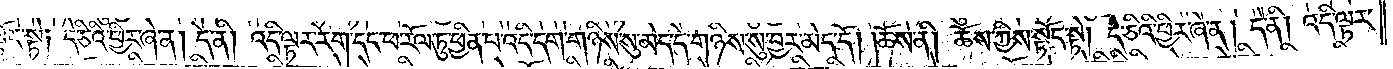སྟོང་སྟེ། དེ་ཅིའི་ཕྱིར་ཞེ་ན། དེ་ནི། འདི་ལྟར་རེག་དང་ཕ་རོལ་ཏུ་ཕྱིན་པ་འདི་དག་གཉིས་སུ་མེད་དེ་གཉིས་སུ་བྱར་མེད་དོ། །ཆོས་ནི། ཆོས་ཀྱིས་སྟོང་སྟེ། དེ་ཅིའི་ཕྱིར་ཞེ་ན། དེ་ནི། འདི་ལྟར་
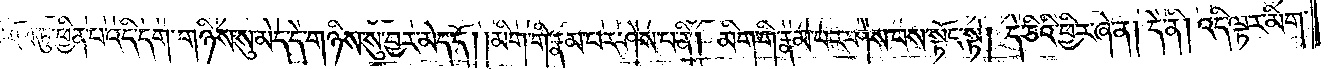ཆོས་དང་ཕ་རོལ་ཏུ་ཕྱིན་པ་འདི་དག་གཉིས་སུ་མེད་དེ་གཉིས་སུ་བྱར་མེད་དོ། །མིག་གི་རྣམ་པར་ཤེས་པ་ནི། མིག་གི་རྣམ་པར་ཤེས་པས་སྟོང་སྟེ། དེ་ཅིའི་ཕྱིར་ཞེ་ན། དེ་ནི། འདི་ལྟར་མིག་
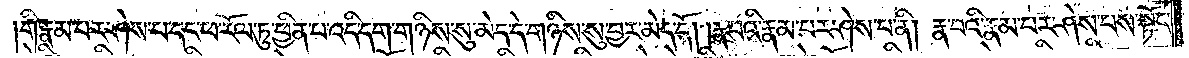གི་རྣམ་པར་ཤེས་པ་དང་ཕ་རོལ་ཏུ་ཕྱིན་པ་འདི་དག་གཉིས་སུ་མེད་དེ་གཉིས་སུ་བྱར་མེད་དོ། །རྣ་བའི་རྣམ་པར་ཤེས་པ་ནི། རྣ་བའི་རྣམ་པར་ཤེས་པས་སྟོང་
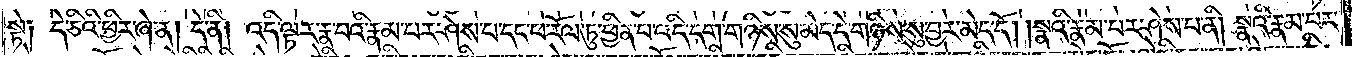སྟེ༑ དེ་ཅིའི་ཕྱིར་ཞེ་ན། དེ་ནི། འདི་ལྟར་རྣ་བའི་རྣམ་པར་ཤེས་པ་དང་ཕ་རོལ་ཏུ་ཕྱིན་པ་འདི་དག་གཉིས་སུ་མེད་དེ་གཉིས་སུ་བྱར་མེད་དོ། །སྣའི་རྣམ་པར་ཤེས་པ་ནི། སྣའི་རྣམ་པར་
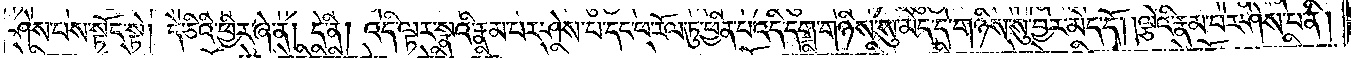ཤེས་པས་སྟོང་སྟེ། དེ་ཅིའི་ཕྱིར་ཞེ་ན། དེ་ནི། འདི་ལྟར་སྣའི་རྣམ་པར་ཤེས་པ་དང་ཕ་རོལ་ཏུ་ཕྱིན་པ་འདི་དག་གཉིས་སུ་མེད་དེ་གཉིས་སུ་བྱར་མེད་དོ། །ལྕེའི་རྣམ་པར་ཤེས་པ་ནི།
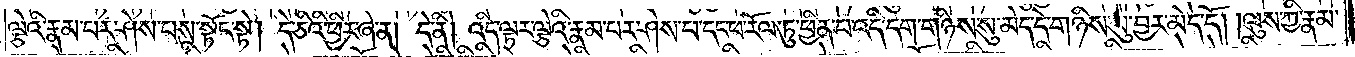ལྕེའི་རྣམ་པར་ཤེས་པས་སྟོང་སྟེ། དེ་ཅིའི་ཕྱིར་ཞེ་ན། དེ་ནི། འདི་ལྟར་ལྕེའི་རྣམ་པར་ཤེས་པ་དང་ཕ་རོལ་ཏུ་ཕྱིན་པ་འདི་དག་གཉིས་སུ་མེད་དེ་གཉིས་སུ་བྱར་མེད་དོ། །ལུས་ཀྱི་རྣམ་
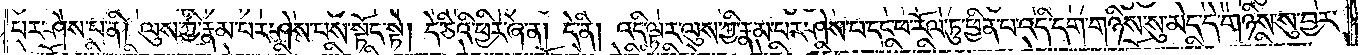པར་ཤེས་པ་ནི། ལུས་ཀྱི་རྣམ་པར་ཤེས་པས་སྟོང་སྟེ། དེ་ཅིའི་ཕྱིར་ཞེ་ན། དེ་ནི། འདི་ལྟར་ལུས་ཀྱི་རྣམ་པར་ཤེས་པ་དང་ཕ་རོལ་ཏུ་ཕྱིན་པ་འདི་དག་གཉིས་སུ་མེད་དེ་གཉིས་སུ་བྱར་
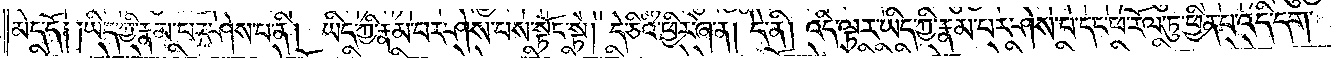མེད་དོ། །ཡིད་ཀྱི་རྣམ་པར་ཤེས་པ་ནི། ཡིད་ཀྱི་རྣམ་པར་ཤེས་པས་སྟོང་སྟེ། དེ་ཅིའི་ཕྱིར་ཞེ་ན། དེ་ནི། འདི་ལྟར་ཡིད་ཀྱི་རྣམ་པར་ཤེས་པ་དང་ཕ་རོལ་ཏུ་ཕྱིན་པ་འདི་དག་
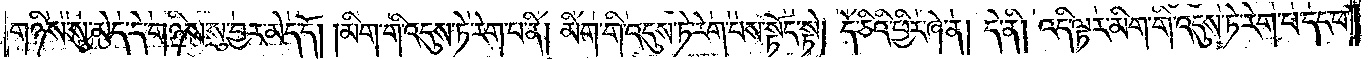གཉིས་སུ་མེད་དེ་གཉིས་སུ་བྱར་མེད་དོ། །མིག་གི་འདུས་ཏེ་རེག་པ་ནི། མིག་གི་འདུས་ཏེ་རེག་པས་སྟོང་སྟེ། དེ་ཅིའི་ཕྱིར་ཞེ་ན། དེ་ནི། འདི་ལྟར་མིག་གི་འདུས་ཏེ་རེག་པ་དང་ཕ་
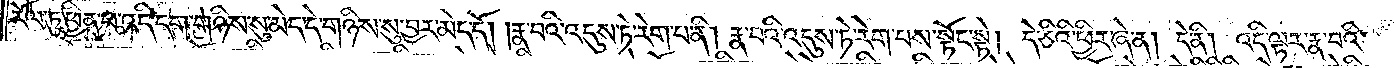རོལ་ཏུ་ཕྱིན་པ་འདི་དག་གཉིས་སུ་མེད་དེ་གཉིས་སུ་བྱར་མེད་དོ། །རྣ་བའི་འདུས་ཏེ་རེག་པ་ནི། རྣ་བའི་འདུས་ཏེ་རེག་པས་སྟོང་སྟེ། དེ་ཅིའི་ཕྱིར་ཞེ་ན། དེ་ནི། འདི་ལྟར་རྣ་བའི་
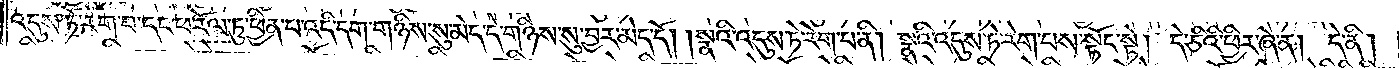འདུས་ཏེ་རེག་པ་དང་ཕ་རོལ་ཏུ་ཕྱིན་པ་འདི་དག་གཉིས་སུ་མེད་དེ་གཉིས་སུ་བྱར་མེད་དོ། །སྣའི་འདུས་ཏེ་རེག་པ་ནི། སྣའི་འདུས་ཏེ་རེག་པས་སྟོང་སྟེ། དེ་ཅིའི་ཕྱིར་ཞེ་ན། དེ་ནི།
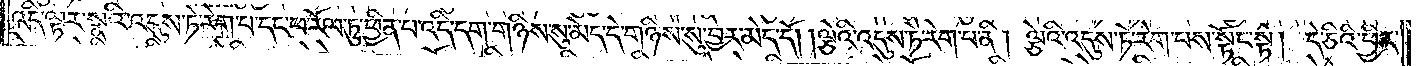འདི་ལྟར་སྣའི་འདུས་ཏེ་རེག་པ་དང་ཕ་རོལ་ཏུ་ཕྱིན་པ་འདི་དག་གཉིས་སུ་མེད་དེ་གཉིས་སུ་བྱར་མེད་དོ། །ལྕེའི་འདུས་ཏེ་རེག་པ་ནི། ལྕེའི་འདུས་ཏེ་རེག་པས་སྟོང་སྟེ། དེ་ཅིའི་ཕྱིར་
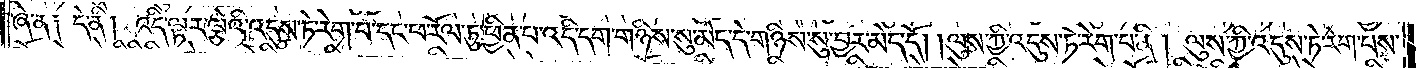ཞེ་ན༑ དེ་ནི། འདི་ལྟར་ལྕེའི་འདུས་ཏེ་རེག་པ་དང་ཕ་རོལ་ཏུ་ཕྱིན་པ་འདི་དག་གཉིས་སུ་མེད་དེ་གཉིས་སུ་བྱར་མེད་དོ། །ལུས་ཀྱི་འདུས་ཏེ་རེག་པ་ནི། ལུས་ཀྱི་འདུས་ཏེ་རེག་པས་
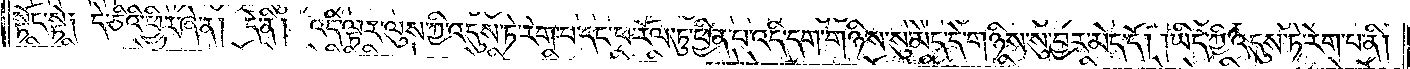སྟོང་སྟེ། དེ་ཅིའི་ཕྱིར་ཞེ་ན། དེ་ནི། འདི་ལྟར་ལུས་ཀྱི་འདུས་ཏེ་རེག་པ་དང་ཕ་རོལ་ཏུ་ཕྱིན་པ་འདི་དག་གཉིས་སུ་མེད་དེ་གཉིས་སུ་བྱར་མེད་དོ། །ཡིད་ཀྱི་འདུས་ཏེ་རེག་པ་ནི།
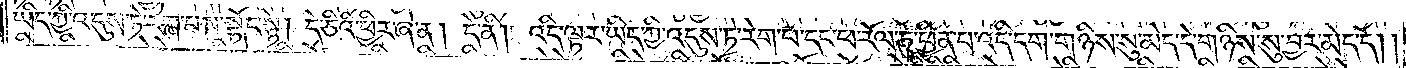ཡིད་ཀྱི་འདུས་ཏེ་རེག་པས་སྟོང་སྟེ། དེ་ཅིའི་ཕྱིར་ཞེ་ན། དེ་ནི། འདི་ལྟར་ཡིད་ཀྱི་འདུས་ཏེ་རེག་པ་དང་ཕ་རོལ་ཏུ་ཕྱིན་པ་འདི་དག་གཉིས་སུ་མེད་དེ་གཉིས་སུ་བྱར་མེད་དོ། །
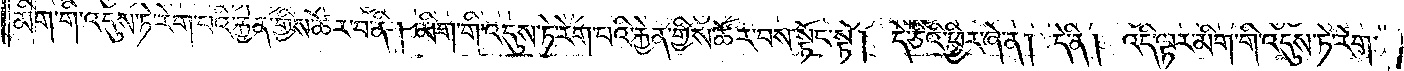མིག་གི་འདུས་ཏེ་རེག་པའི་རྐྱེན་གྱིས་ཚོར་བ་ནི། མིག་གི་འདུས་ཏེ་རེག་པའི་རྐྱེན་གྱིས་ཚོར་བས་སྟོང་སྟེ། དེ་ཅིའི་ཕྱིར་ཞེ་ན། དེ་ནི། འདི་ལྟར་མིག་གི་འདུས་ཏེ་རེག་
